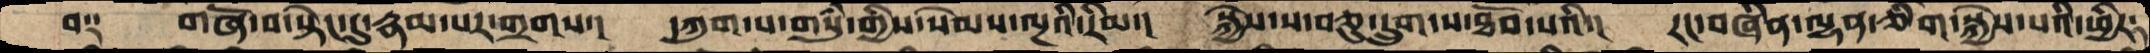བ༑  གཞོ་བ་སྟེང་དུ་རྣམ་པར་གྲགས་།  དཀུག་པ་གསུཾ་གྱིས་སེམས་ལྔའི་རིམ་།  སྐྱེས་པ་བཅུ་དྲུག་ས་ཐོབ་པའི་།  རང་བཞིན་ལྷན་ཅིག་སྐྱེས་པའི་ཕྱིར་
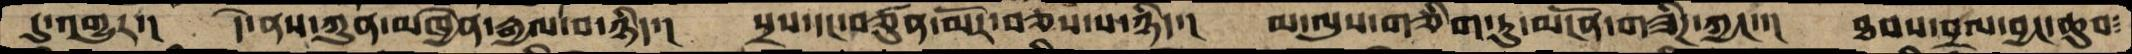དུ་འགྱུར་།  དེ་ནས་ཀུན་མཁྱེན་རྒྱལ་བ་ཉིད་།  སྲས་དང་བཙུན་མོར་བཅས་པ་ཉིད་།  མ་ལུས་གཅིག་ཏུ་མངོན་གཟིཌ་ཀྱང་་།  ཐབས་བྲལ་བྱང་ཆུབ༴
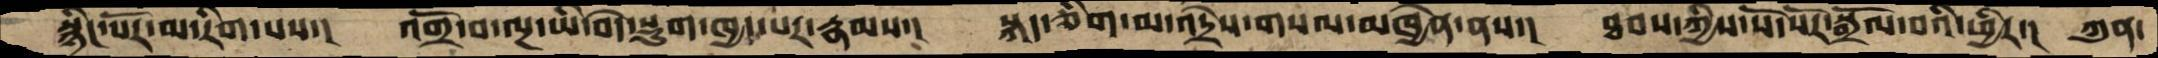སྙིང་པོར་མ་རིག་པས་།  འགྲོ་བ་ལྔ་ཡི་བདེ་སྡུག་ཁྱད་པར་རྣམས་།  སྐད་ཅིག་མ་འདྲེས་གསལ་མཁྱེན་ནས་།  ཐབས་ཀྱིས་སོ་སོར་སྒྲོལ་བའི་ཕྱིར་།  ཀུན་
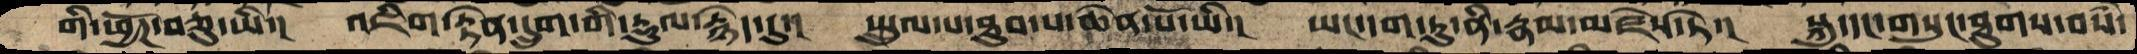གི་ཕྱོཌ་བཅུ་ཡི་། འཇིག་རྟེན་དྲུག་གི་རྡུལ་རྙེད་དུ་།  སྤྲུལ་པ་ཐུབ་པ་ཆེན་པོ་ཡི་།  ཡང་དག་ཏུ་ནི་རྣམ་མཛེས་ཏེ་།  སྐུ་དང་གསུང་ཐུགས་བསཾ་
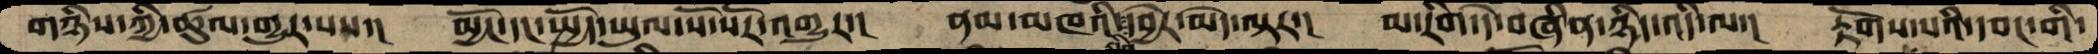གཉིས་ཀྱི་ཚུལ་གྱུར་པས་།  མྱོང་དང་སྤྱོད་ཡུལ་སོ་སོར་འགྱུར་།  ནམ་མཁའི་རངིན་དབྱེར་མེད་ལྟར་།  མ་རིག་དེ་བཞིན་ཉིད་འདི་ལ་།  རྟོགས་པའི་དབང་གི་
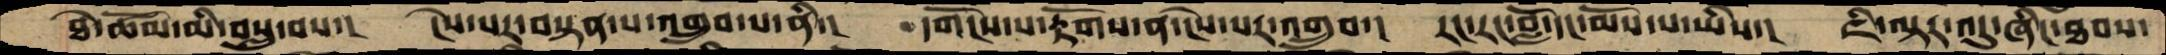ཐེ་ཚོམ་མི་བསླུ་བས་།  ངེས་པར་བསྟན་པ་འགྲུབ་པ་ནི་།  དགོངས་པ་རྟོགས་ན་ངེས་པར་འགྲུབ་།  རང་རང་བློ་དང་མོས་པ་ཡིས་།  ཇི་ལྟར་འདུ་ཞིང་ཐབས་
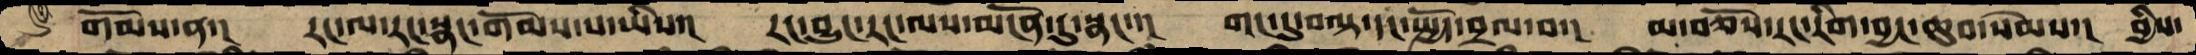གོམས་ན་།  རང་ལ་རང་སྣང་གོམས་པ་ཡིས་།  རང་བྱུང་རང་ལས་མངོན་དུ་སྣང་།  གང་དུ་བལྟ་དང་སྤྱོད་བྲལ་བ་།  མ་བཅོས་རང་རིག་བྱང་ཆུབ་སེམས་།  བྱིས་
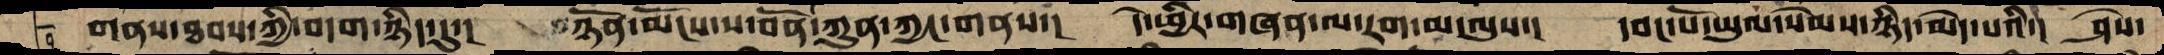གནས་ཐབས་ཀྱི་བདག་ཉིད་དུ་།  ཉོན་མོངས་ས་བོན་ཀུན་ཀྱང་གནས་།  དེ་ཕྱིར་གཞན་ལ་རག་མ་ལུས་།  དབང་པོ་ཡུལ་སེམས་ཉིད་མེད་པའི་།  ཤེས་
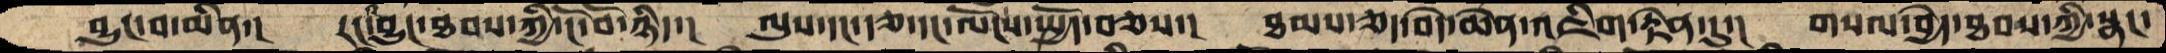བྱུང་བ་ཡིན་།  རང་འབྱུང་ཐབས་ཀྱི་ངོ་བོ་ཉིད་།  ལུས་དང་རྩ་དང་ལོངས་སྤྱོད་བཅས་།  ཐམས་ཅད་བདེ་ཆེན་འཇིག་རྟེན་དུ་།  གསལ་བྱེད་ཐབས་ཀྱི་སྣང་
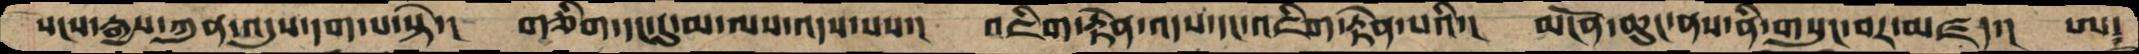སངས་རྒྱས་ཀུན་འདུས་དག་པ་སྟེ་།  གཅིག་དང་དུ་མ་ལས་འདས་པས་།  འཇིག་རྟེན་འདས་དང་འཇིག་རྟེན་པའི་།  མངོན་ཆུང་ནས་ནི་གསུང་བར་མཛད་།  ཨ༴
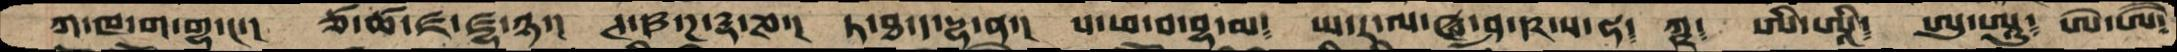ཀ་ཁ་ག་གྷ་ང་།  ཙ་ཚ་ཛ་ཛྷ་ཉ་།  ཊ་ཋ་ཌ་ཌྷ་ཎ་།  ཏ་ཐ་ད་དྷ་ན་།  པ་ཕ་བ་བྷ་མ༴  ཡ་ར་ལ་ཝ་ཤ་ཥ་ས་ཧ༴  ཀྵ༴ ཨི་ཨཱི༴  ཨུ་ཨཱུ༴  ཨེ་ཨཻ༴
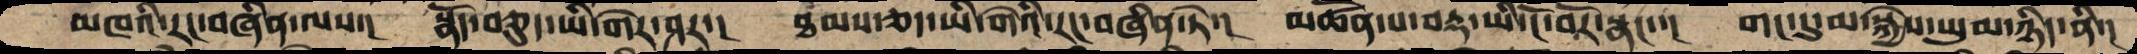མཁའི་རང་བཞིན་ལས་།  སྣོད་བཅུད་ཡི་གེར་ཤར་།  ཐབས་ཅད་ཡི་གེའི་རང་བཞིན་ཏེ་།  མཚོན་པ་བརྡ་ཡི་ངོ་བོར་སྣང་་།  གང་དུ་མ་སྐྱེས་ཡུམ་ཉིད་ནི་།
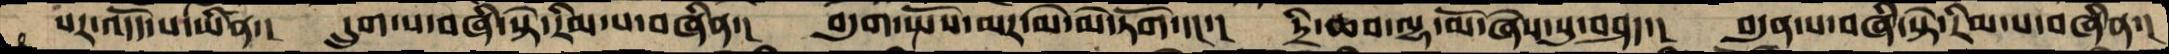པར་འདོད་པ་ཡིན་།  དྲུག་པ་བཞི་སྟེ་རིམ་པ་བཞིན་།  བདུག་སྤོས་མར་མེ་མེ་ཏོག་དང་།  དྲི་ཆབ་ལྷ་མོ་ཞེས་སུ་བཤད་།  བདུན་པ་བཞི་སྟེ་རིམ་པ་བཞིན་།
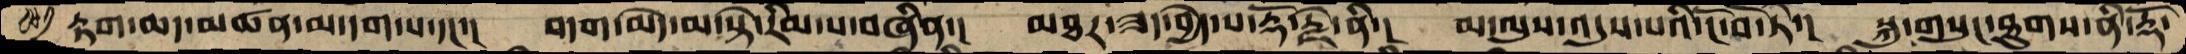རྟག་ཆད་མཚན་མ་དག་པ་དང་།  བདག་མེད་མ་སྟེ་རིམ་པ་བཞིན་།  མཐར་ཟད་བྱེད་པ་རྡོ་རྗེ་ནི་།  མ་ལུས་འདུས་པའི་ངོ་བོ་སྟེ་།  སྐུ་གསུང་ཐུགས་ནི་རྡོ་
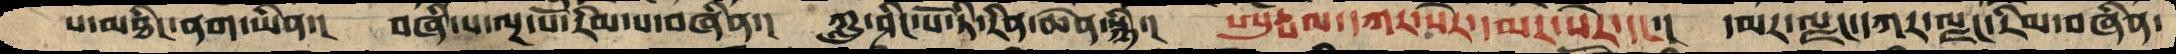པ་མཐིང་ནག་ཡིན་།  བཞི་པ་ལྔ་པོ་རིམ་པ་བཞིན་།  ཀླུ་ཤིང་པོ་ཏི་རིན་ཆེན་སྙི་།  ཨུཏྤལ་དཀར་སེར་དམར་སེར་དང་།  དམར་ལྗང་དཀར་ལྗང་རིམ་བཞིན་
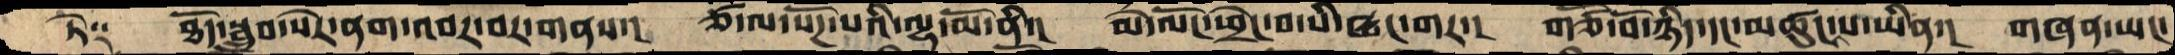ཏེ༑   ཐོད་སྦྲུབ་སེར་ནག་འབར་བར་གནས་།  ཙ་ལ་སོཌ་པའི་ལྷ་མོ་ནི་།  མེ་ལོང་ཕྲེང་བ་པི་ཝང་གར་།  གཙོ་བོ་ཉིད་དང་མཚུང་པ་ཡིན་།  གཞན་ཡང་
